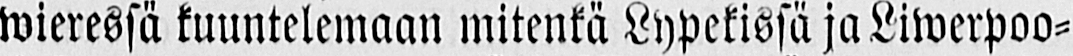wieressä kuuntelemaan mitenkä Lypekissä ja Liwerpoo-
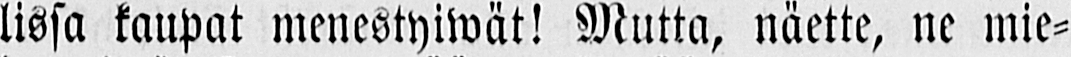lissa kaupat menestyiwät! Mutta, näette, ne mie-
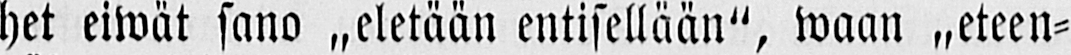het eiwät sano „eletään entisellään", waan „eteen-
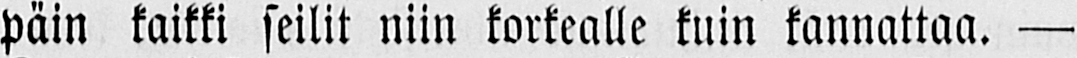päin kaikki siilit niin korkealle kuin kannattaa. —
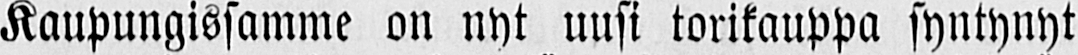Kaupungissamme on nyt uusi torikauppa syntynyt
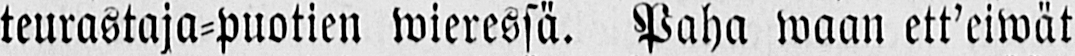teurastaja-puotien wieressä. Paha waan ett'eiwät
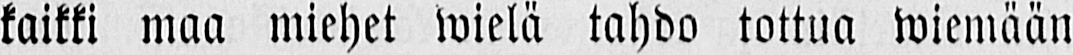kaikki maa miehet wielä tahdo tottua wiemään
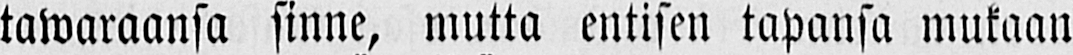tawaraansa sinne, mutta entisin tapansa mukaan
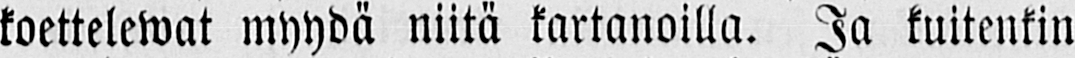koettelewat myydä niitä kartanoilla. Ja kuitenkin
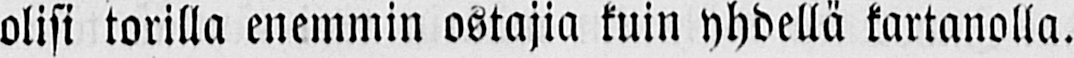olisi torilla enemmin ostajia kuin yhdellä kartanolla.
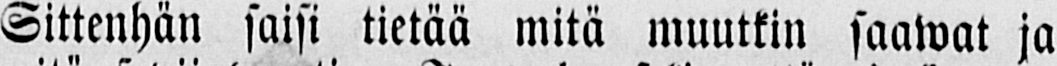Sittenhän saisi tietää mitä muutkin saawat ja
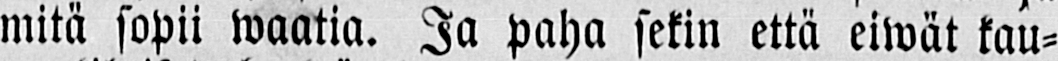mitä sopii waatia. Ja paha sekin että eiwät kau-
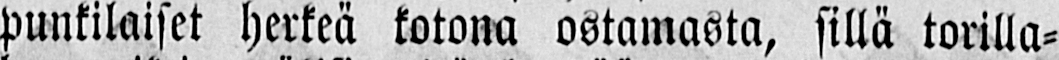punkilaiset herkeä kotona ostamasta, sillä torilla-
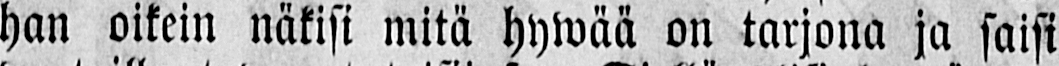han oikein näkisi mitä hywää on tarjona ja saisi
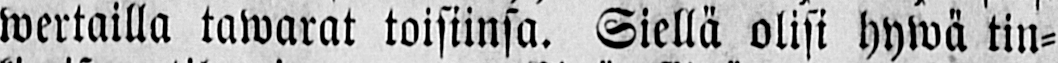wertailla tawarat toisiinsa. Siellä olisi hywä tin-
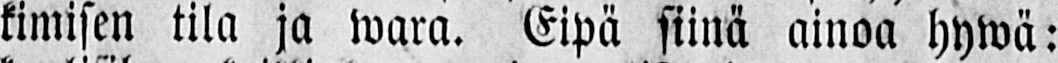kimisen tila ja wara. Eipä siinä ainoa hywä:
